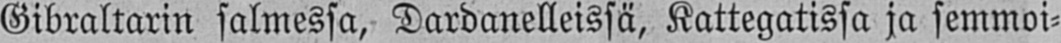Gibraltarin salmessa, Dardanelleissä, Kattegatissa ja semmoi-
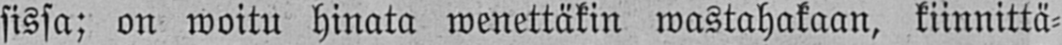sissa; on woitu hinata wenettäkin wastahakaan, kiinnittä-
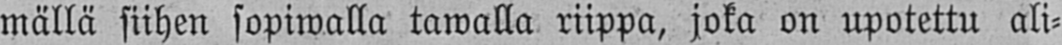mällä siihen sopiwalla tawalla riippa, joka on upotettu ali-
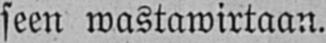seen wastawirtaan.
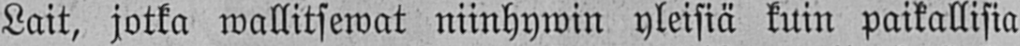Lait, jotka wallitsewat niinhywin yleisiä kuin paikallisia
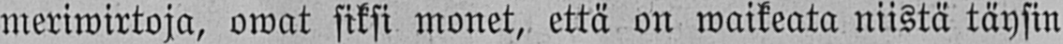meriwirtoja, owat siksi monet, että on waikeata niistä täysin
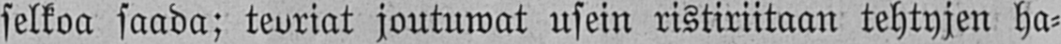selkoa saada; teoriat joutuwat usein ristiriitaan tehtyjen ha-
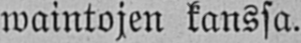waintojen kanssa.
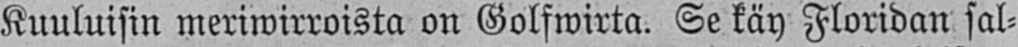Kuuluisin meriwirroista on Golfwirta. Se käy Floridan sal-
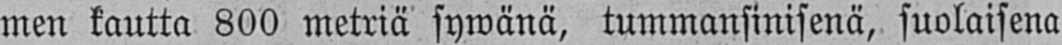men kautta 800 metriä sywänä, tummansinisenä, suolaisena
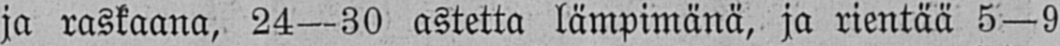ja raskaana, 24 —30 astetta lämpimänä, ja rientää 5—9
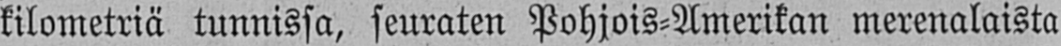kilometriä tunnissa, seuraten Pohjois-Amerikan merenalaista
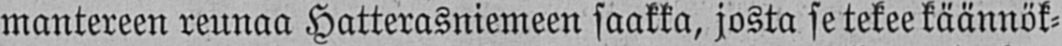mantereen reunaa Hatterasniemeen saakka, josta se tekee käännök-
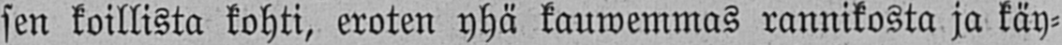sen koillista kohti, eroten yhä kauwemmas rannikosta ja käy-
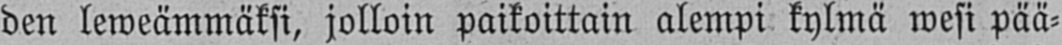den leweämmäksi, jolloin paikoittain alempi kylmä wesi pää-
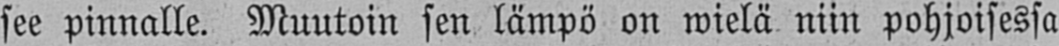see pinnalle. Muutoin sen lämpö on wielä niin pohjoisessa
